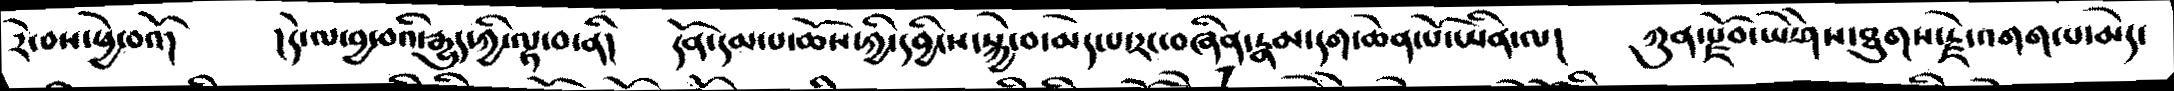རེ་བས་ཕྱེ་བའོ།     །དེ་ལ་བྱ་བའི་རྒྱུད་ཀྱི་ལྟ་བ་ནི།    དོན་དམ་པ་ཆོས་ཀྱི་དབྱིངས་སྐྱེ་བ་མེད་པ་རང་བཞིན་རྣམ་དག་ཆེན་པོ་ཡིན་ལ།   ཀུན་རྫོབ་ཡེ་ཤེས་ཐུགས་རྗེ་འགག་པ་མེད་
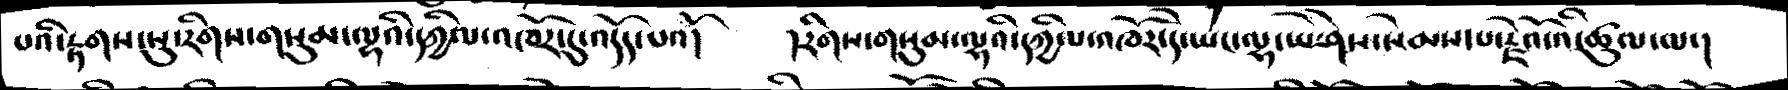པའི་རྟགས་སུ་རིགས་གསུམ་ལྷའི་དཀྱིལ་འཁོར་དུ་འདོད་པའོ།    །རིགས་གསུམ་ལྷའི་དཀྱིལ་འཁོར་དེ་ཡང་ལྷ་ཡེ་ཤེས་སེམས་པ་རྗེའོ་འི་ཚུལ་ལ་།
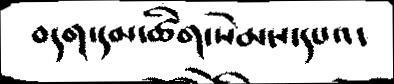བདག་དམ་ཚིག་སེམས་དཔའ་
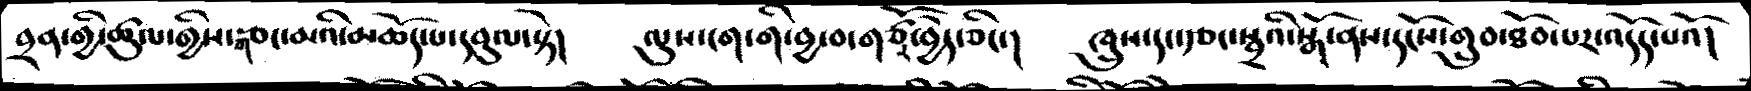བྲན་གྱི་ཚུལ་གྱིས་གཙང་མའི་མཆོད་པ་དབུལ་སྟེ།    ལུས་ངག་གི་བྱ་བ་གཙོར་བྱེད་ཅིང་།    ཁྲུས་དང་རྩང་སྦྲའི་སྒོ་ནས་དོངས་གྲུབ་ཐོབ་པར་འདོད་པའོ།
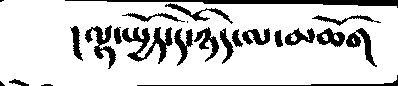།ལྟ་སྤྱོད་དེ་ཉིད་ལ་མཆོག
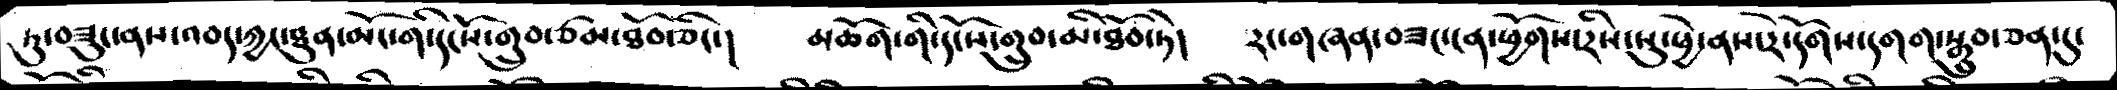ཏུ་བཟུང་ནས་འབད་ཀྱང་ཐུན་མོང་གི་དངོས་གྲུབ་ཙམ་ཐོབ་ཅིང་།  མཆོག་གི་དངོས་གྲུབ་མི་ཐོབ་ཏེ།   རང་གཞན་བཟང་ངན་ཕྱོགས་རིས་སུ་ཕྱེ་ནས་རེ་དོགས་དགག་སྒྲུབ་ཅན་དུ་
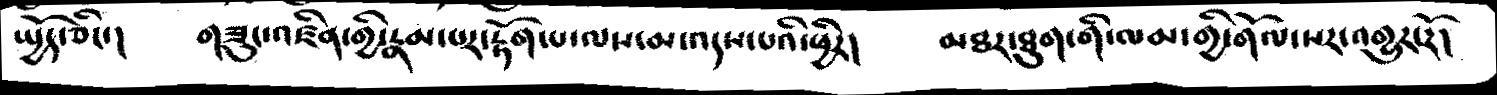སྤྱོད་ཅིང་།   གཟུང་འཛིན་གྱི་རྣམ་པར་རྟོག་པ་ལས་མ་འདས་པའི་ཕྱིར།   མཐར་ཐུག་གི་ལམ་གྱི་གོལ་སར་འགྱུར་རོ།
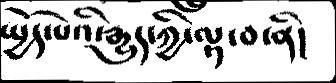སྤྱོད་པའི་རྒྱུད་ཀྱི་ལྟ་བ་ནི།
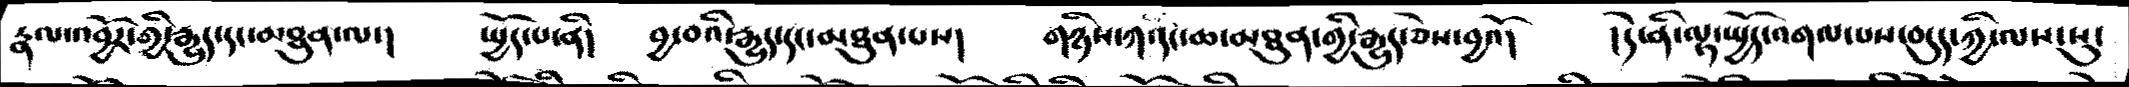རྣལ་འབྱོར་གྱི་རྒྱུད་དང་མཐུན་ལ།   སྤྱོད་པ་ནི།   བྱ་བའི་རྒྱུད་དང་མཐུན་པས།   གཉིས་ཀ་དང་ཆ་མཐུན་གྱི་རྒྱུད་ཅེས་བྱའོ།   །དེ་ནི་ལྟ་སྤྱོད་འགལ་པས་བདུད་ཀྱི་ལས་སུ་
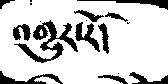འགྱུར་རོ།
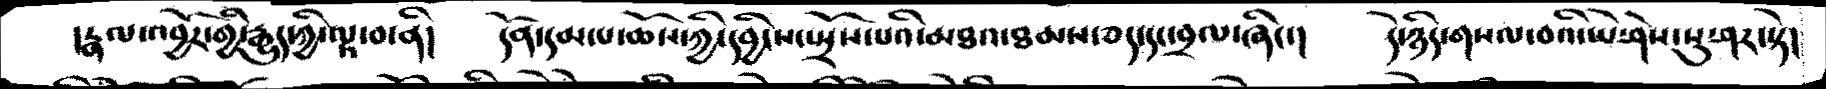རྣལ་འབྱོར་གྱི་རྒྱུད་ཀྱི་ལྟ་བ་ནི།   དོན་དམ་པ་ཆོས་ཀྱི་དབྱིངས་སྤྲོས་པའི་མཐའ་ཐམས་ཅད་དང་བྲལ་ཞིང་།   དེ་ཉིད་གསལ་བའི་ཡེ་ཤེས་སུ་ཤར་སྟེ།
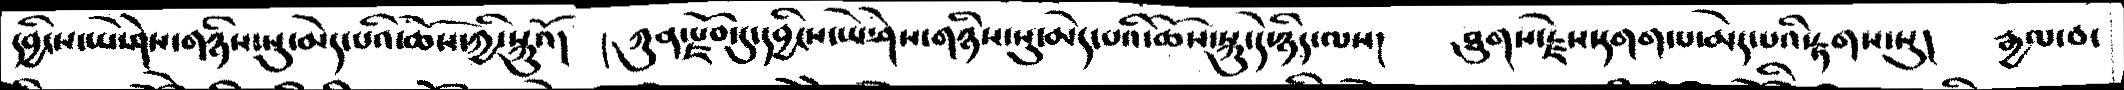དབྱིངས་ཡེ་ཤེས་གཉིས་སུ་མེད་པའི་ཆོས་ཀྱི་སྐུའོ།   །ཀུན་རྫོབ་དུ་དབྱིངས་ཡེ་ཤེས་གཉིས་སུ་མེད་པའི་ཆོས་སྐུ་དེ་ཉིད་ལས།   ཐུགས་རྗེས་དགག་པ་མེད་པའི་རྟགས་སུ།  རྒྱལ་བ་
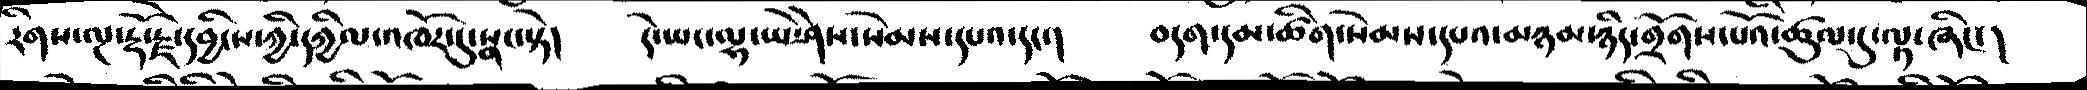རིགས་ལྔ་རྡོ་རྗེ་དབྱིངས་ཀྱི་དཀྱིལ་འཁོར་དུ་སྣང་སྟེ།   དེ་ཡང་ལྷ་ཡེ་ཤེས་སེམས་དཔའ་དང་།   བདག་དམ་ཚིག་སེམས་དཔའ་མཉམ་ཉིད་གྲོགས་པོའི་ཚུལ་དུ་ལྟ་ཞིང་།
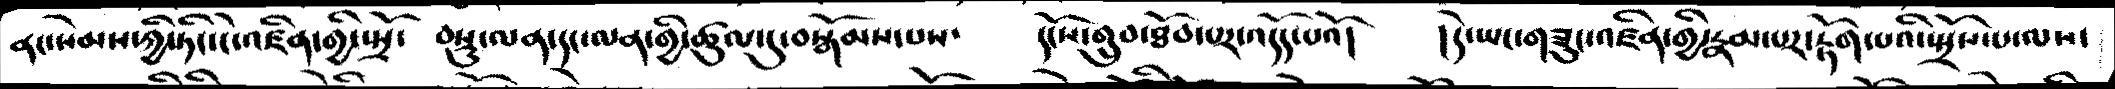ནང་སེམས་ཀྱི་ཏིང་ངེ་འཛིན་གྱི་སྤྲོ་བསྡུ་ལན་དང་ལན་གྱི་ཚུལ་གྱི་བསྒོམས་པས་  དངོས་གྲུབ་ཐོབ་པར་འདོད་པའོ།   །དེ་ཡང་གཟུང་འཛིན་གྱི་རྣམ་པར་རྟོག་པའི་སྤྲོས་པ་ལས་
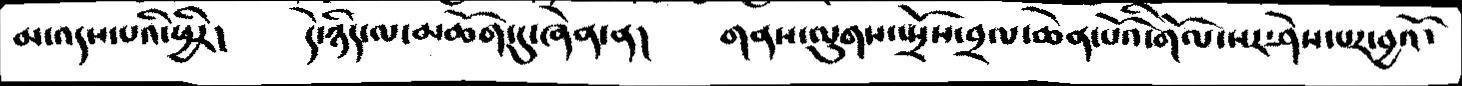མ་འདས་པའི་ཕྱིར།   དེ་ཉིད་ལ་མཆོག་དུ་ཞེན་ན།   གནས་ལུགས་སྤྲོས་བྲལ་ཆེན་པོའི་གོལ་སར་ཤེས་པར་བྱའོ་
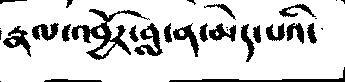རྣལ་འབྱོར་བླ་ན་མེད་པའི་
